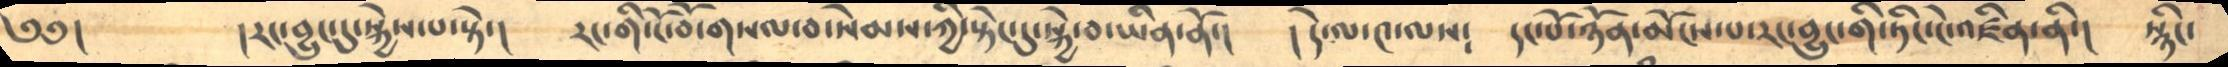༄༅།       །རང་བྱུང་དུ་སྐྱེས་པ་སྟེ་།       རང་གི་ངོ་བོ་གསལ་བ་སེམས་ཀྱི་སྟེང་དུ་སྐྱེ་བ་ཡིན་ནོ་།    །དེ་ལ་༤་ལས༴    དང་པོ་ཉོན་མོངས་པ་རང་བྱུང་གི་ཏིང་ངེ་འཛིན་ནི་།     སྙིང་
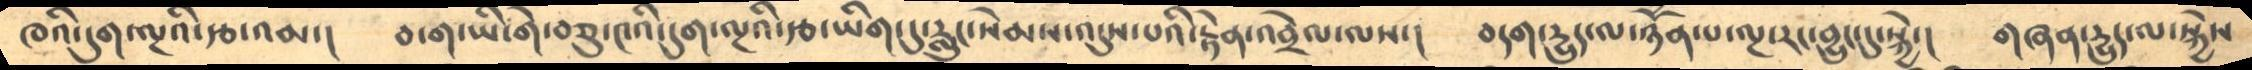ཁའི་དུག་ལྔའི་རྩ་འམ་།     བ་ག་ཡི་གེ་བཅུ་༤འི་དུག་ལྔའི་རྩ་ཡིག་དུ་རླུང་སེམས་འདུས་པའི་རྟེན་འབྲེལ་ལས་།      བདག་དྱུད་ལ་ཉོཾན་པ་ལྔ་རང་བྱུང་དུ་སྐྱེ་།  གཞན་དྱུད་ལ་སྐྱེས
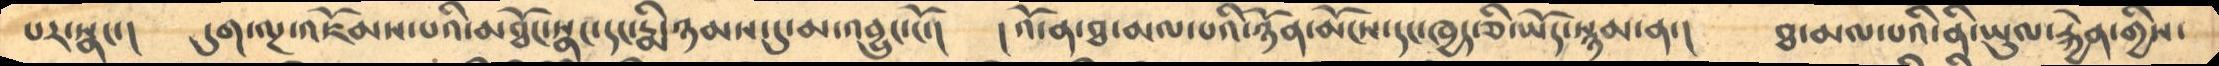པར་སྣང་།      དུག་ལྔ་འཇོམས་པའི་མཐོང་སྣང་དང་རྨི་ཉམས་དུ་མ་འབྱུང་ངོ་།       །འོ་ན་ཐ་མལ་པའི་ཉོན་མོངས་དང་ཁྱད་ཅི་ཡོད་སྙམ་ན་།   ཐ་མལ་པའི་ནི་ཡུལ་རྐྱེན་གྱིས་
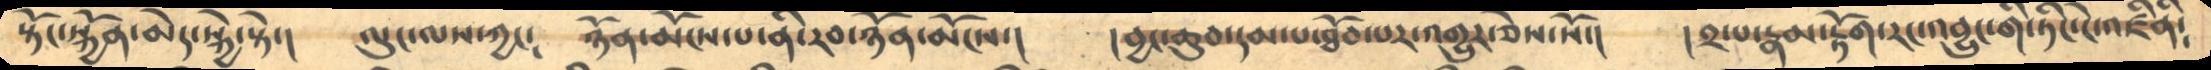སྟོང་སྐྱོན་མེད་སྐྱེ་སྟེ་།       ལུང་ལས་ཀྱང༴     ཉོན་མོངས་པ་ནི་རབ་ཉོན་མོངས་།      །བྱང་ཆུབ་དམ་པ་ཐོབ་པར་འགྱུར་ཅེས་སོ་།       །༢་པ་རྣམ་རྟོག་རང་འབྱུང་གི་ཏིང་ངེ་འཛིནི༴
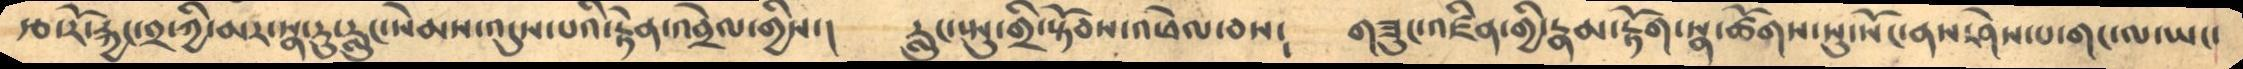རྩ་རོ་རྐྱང་༢་ཀྱི་མར་སྣ་རུ་རླུང་སེམས་འདུས་པའི་རྟེན་འབྲེལ་གྱིས་།     རླུང་སྤུ་གྲི་སྟོབས་འཕེལ་བས༴      གཟུང་འཛིན་གྱི་རྣམ་རྟོག་སྣ་ཚོགས་སུ་སོང་ནས་ཤེས་པ་གང་ལ་ཡང་
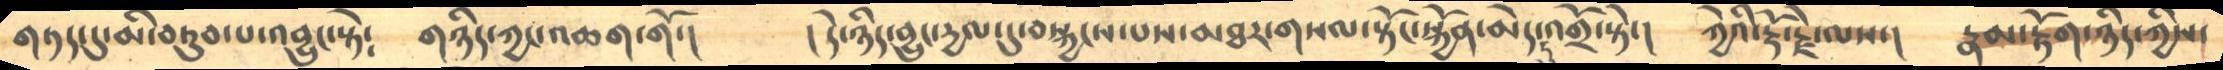གཏད་དུ་མི་བཏུབ་པ་འབྱུང་སྟེ༴     གཉིད་ཀྱང་འཆག་གོ་།        །དེ་ཉིད་བྱུང་དྱལ་དུ་བསྐྱངས་པས་མཐར་གསལ་སྟོང་སྐྱོན་མེད་འགྲོ་སྟེ་།       ཀྱེའི་རྡོ་རྗེ་ལས་།     རྣམ་རྟོག་ཉིད་ཀྱིས་
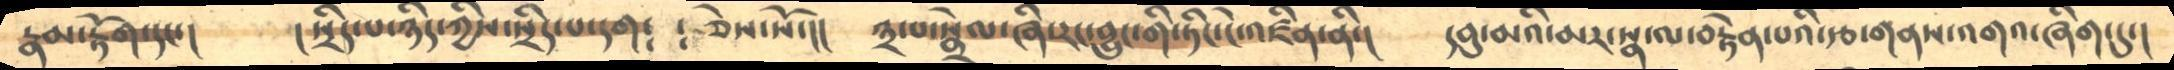རྣམ་རྟོག་དང་།        །སྲིད་པ་ཉིད་ཀྱིས་སྲིད་པ་དག༴ ༴ ཅེས་སོ་།།    ༣་པ་སྣྲེལ་ཞི་རང་བྱུང་གི་ཏིང་ངེ་འཛིན་ནི་།     དབུ་མའི་མར་སྣ་ལ་བརྟེན་པའི་རྩ་གནས་འགའ་ཞིག་དུ་།
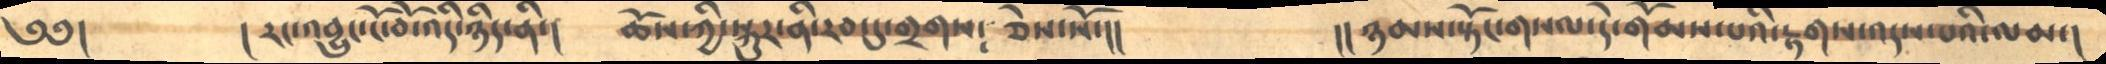༄༅།        །རང་འབྱུང་ངོ་བོ་འདི་ཉིད་ནི་།      ཆོས་ཀྱི་སྐུར་ནི་རབ་དུ་གྲགས༴   ཅེས་སོ་།།      །།ཉམས་སྟོང་གསལ་དེ་གོམས་པའི་རྟགས་འདས་པའི་ལམ་།
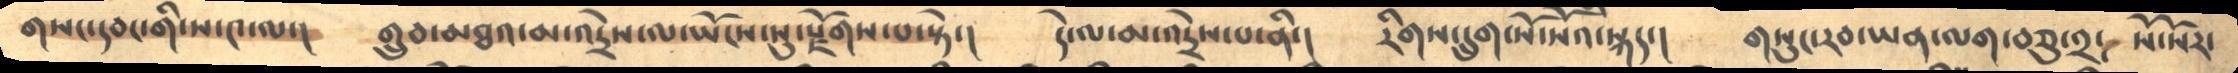གསང་དབང་གི་ས་༤་ལ་།      གྲུབ་མཐའ་མ་འདྲེས་ལ་ཡོངས་སུ་རྫོགས་པ་སྟེ་།     དེ་ལ་མ་འདྲེས་པ་ནི་།     རིགས་དྲུག་སོ་སོའི་སྐད་།     གསུང་རབ་ཡན་ལག་བཅུ་༢༴  སོ་སོར་
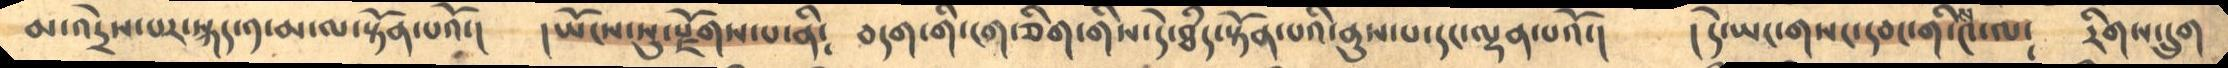མ་འདྲེས་པར་སྐད་༡་མ་ལ་སྟོན་པའོ་།     །ཡོངས་སུ་རྫོགས་པ་ནི༴  བདག་གི་ངག་ཅིག་གིས་དེ་ཐཾད་སྟོན་པའི་ནུས་པ་དང་ལྡན་པའོ་།    །དེ་ཡང་གསང་དབང་གི་༤་ལ༴   རིགས་དྲུག
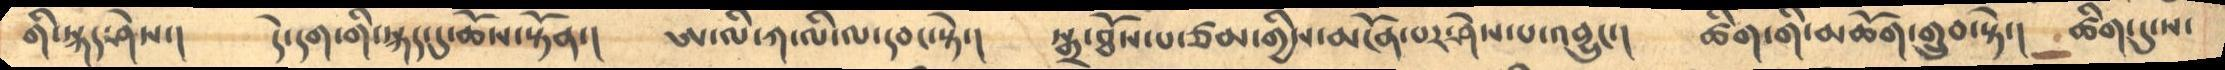གི་སྐད་ཤེས་།      དེ་དག་གི་སྐད་དུ་ཆོས་སྟོན་།       ཨ་ལི་ཀ་ལི་ལ་དབང་སྟེ་།       སྒྲ་ཐོས་པ་ཙམ་གྱིས་མངོན་པར་ཤེས་པ་འབྱུང་།    ཚིག་གི་མཆོག་གྲུབ་སྟེ་།    ཚིག་དུ་ས་
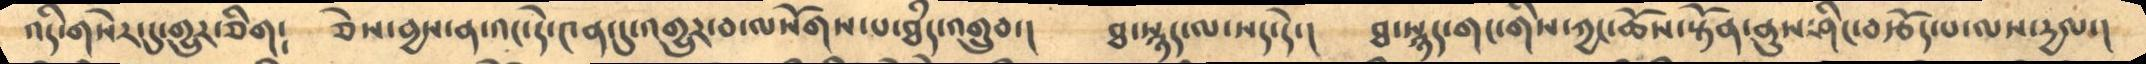འདི་གསེར་དུ་གྱུར་ཅིག༴   ཅེས་བྱས་ན་འང་དེ་༤ན་དུ་འགྱུར་བ་ལསོགས་པ་ཐཾད་འགྲུབ་།      ཐ་སྙད་ལ་སད་དེ་།      ཐ་སྙད་གང་གིས་ཀྱང་ཆོས་སྟོན་ནུས་ཤིང་བརྩོད་པ་ལས་དྱལ་།
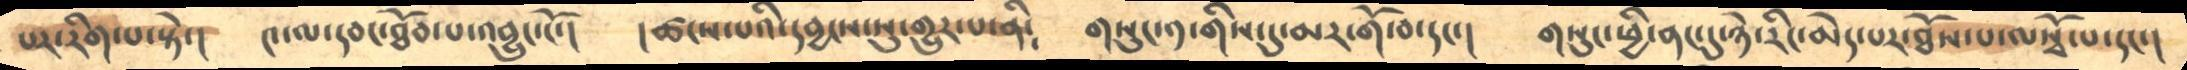པར་རིག་པ་སྟེ་།      ༤་ལ་དབང་ཐོབ་པ་འབྱུང་ངོ་།   །ཚངས་པའི་དབྱངས་སུ་གྱུར་པ་ནི༴   གསུང་༡་གིས་དུ་མར་གོ་བ་དང་།     གསུང་ཕྱི་ནང་དུ་ཉེ་རིང་མེད་པར་ཐོས་པ་ལསྭོ་པ་དང་།
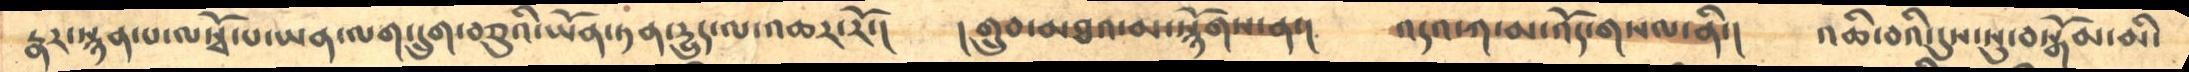རྣར་སྙན་པ་ལསྭོ་པ་ཡན་ལག་དྲུག་བཅུའི་ཡོན་ཏན་དྱུད་ལ་འཆར་རོ་།         །གྲུབ་མཐའ་མ་སྙོགས་ན་།      འདའ་ཀ་མ་འོད་གསལ་ནི་།    འཆི་བའི་དུས་སུ་བསྒོམ་མི་
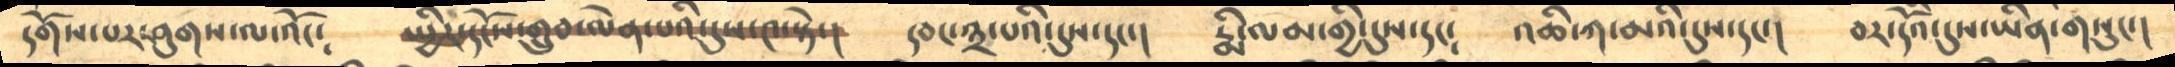དགོས་པར་ཤུགས་ལ་འོང༴      སྤྱིར་དངོས་གྲུབ་ལེན་པའི་དུས་༤་སྟེ་།     དབང་༣་པའི་དུས་དང་།     རྨི་ལམ་གྱི་དུས་དང༴    འཆི་ཀ་མའི་དུས་དང་།    བར་དོའི་དུས་ཡིན་གསུང་།
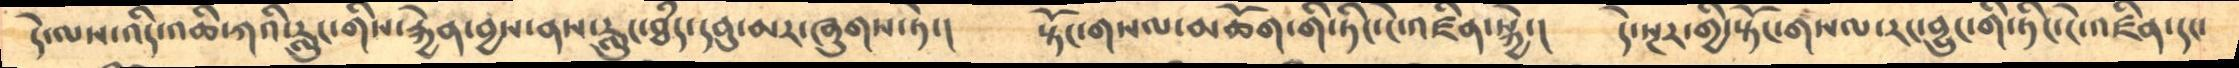དེ་ལས་འདི་འཆི་ཀའི་རླུང་གིས་རྐྱེན་བྱས་ནས་རླུང་ཐཾད་དབུ་མར་ཞུགས་ཏེ་།      སྟོང་གསལ་མཆོག་གི་ཏིང་ངེ་འཛིན་སྐྱེ་།     དེ་སྔར་གྱི་སྟོང་གསལ་རང་བྱུང་གི་ཏིང་ངེ་འཛིན་དང་
